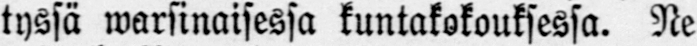tyssä warsinaisessa kuntakokouksessa. Ne
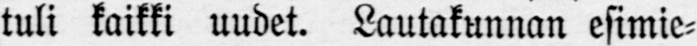tuli kaikki uudet. Lautakunnan esimie-
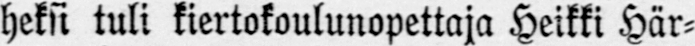heksi tuli kiertokoulunopettaja Heikki Här-
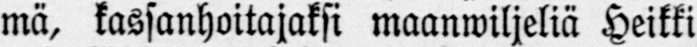mä, kassanhoitajaksi maanwiljeliä Heikki
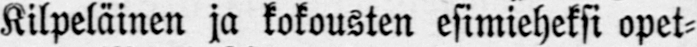Kilpeläinen ja kokousten esimieheksi opet-
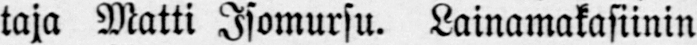taja Matti Isomursu. Lainamakasiinin
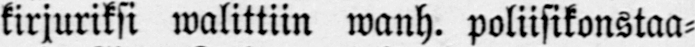kirjuriksi walittiin wanh. poliisikonstaa-
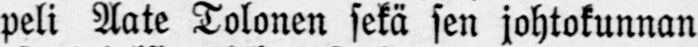peli Aate Tolonen sekä sen johtokunnan
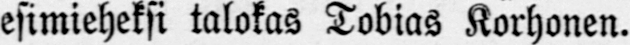esimieheksi talokas Tobias Korhonen.
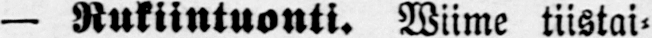—Rukiintuonti. Wiime tiistai-
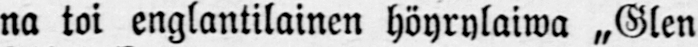na toi englantilainen höyrylaiwa „Glen
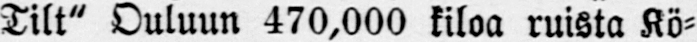Tilt" Ouluun 470,000 kiloa ruista Kö-
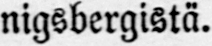nigsbergistä.
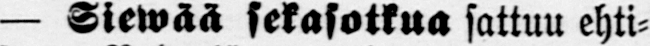— Siewää sekasotkua sattuu ehti-
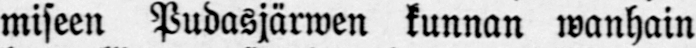miseen Pudasjärwen kunnan wanhain
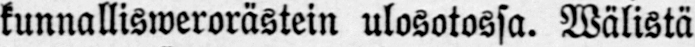kunnalliswerorästein ulosotossa. Wälistä
